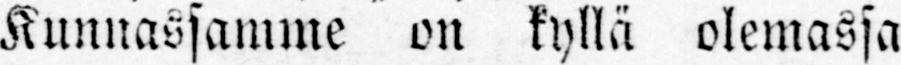Kunnassamme on kyllä olemassa
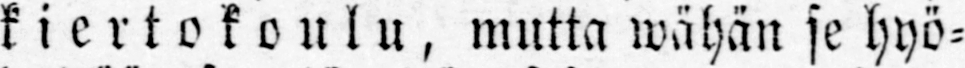kiertokoulu, mutta wähän se hyö-
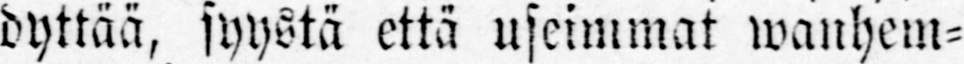dyttää, syystä että useimmat wanhem-
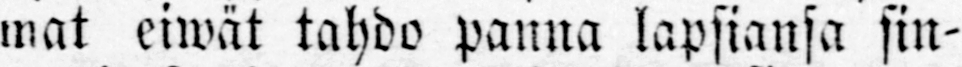mat eiwät tahdo panna lapsiansa sin-
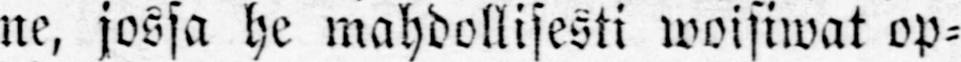ne, jossa he mahdollisesti woisiwat op-
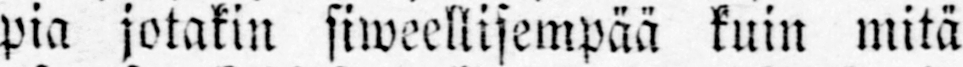pia jotakin siweellisempää kuin mitä
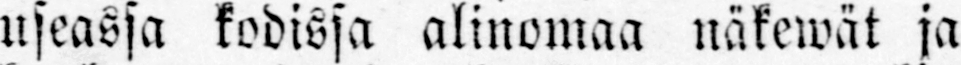useassa kodissa alinomaa näkewät ja
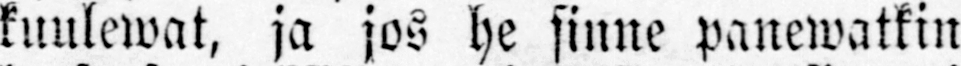kuulewat, ja jos he sinne panewatkin
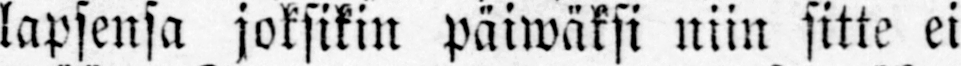lapsensa joksikin päiwäksi niin sitte ei
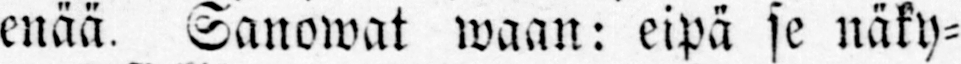enää. Sanowat waan: eipä se näky-
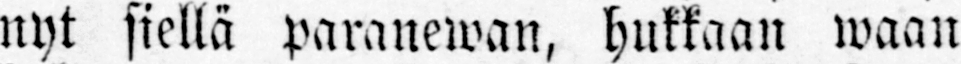nyt siellä paranewan, hukkaan waan
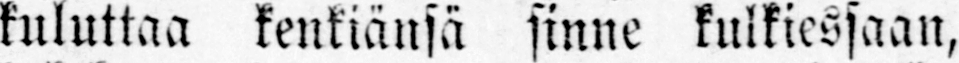kuluttaa kenkiänsä sinne kulkiessaan,
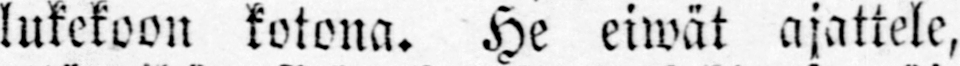lukekoon kotona. He eiwät ajattele,
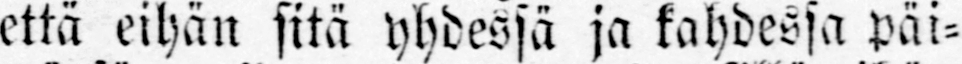että eihän sitä yhdessä ja kahdessa päi-
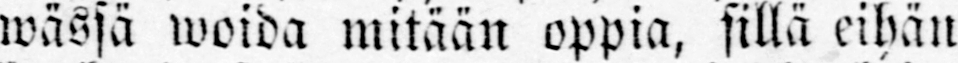wässä woida mitään oppia, sillä eihän
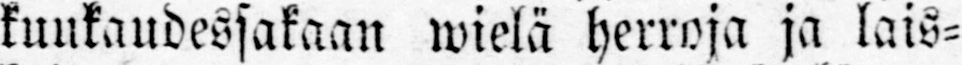kuukaudessakaan wielä herroja ja lais-
